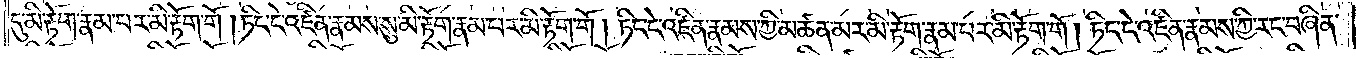དུ་མི་རྟོག་རྣམ་པར་མི་རྟོག་གོ །ཏིང་ངེ་འཛིན་རྣམས་སུ་མི་རྟོག་རྣམ་པར་མི་རྟོག་གོ །ཏིང་ངེ་འཛིན་རྣམས་ཀྱི་མཚན་མར་མི་རྟོག་རྣམ་པར་མི་རྟོག་གོ །ཏིང་ངེ་འཛིན་རྣམས་ཀྱི་རང་བཞིན་
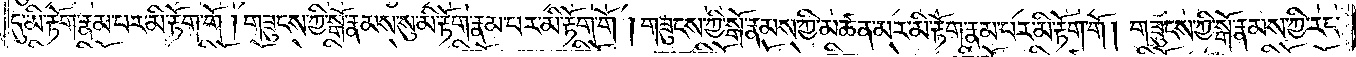དུ་མི་རྟོག་རྣམ་པར་མི་རྟོག་གོ །གཟུངས་ཀྱི་སྒོ་རྣམས་སུ་མི་རྟོག་རྣམ་པར་མི་རྟོག་གོ །གཟུངས་ཀྱི་སྒོ་རྣམས་ཀྱི་མཚན་མར་མི་རྟོག་རྣམ་པར་མི་རྟོག་གོ །གཟུངས་ཀྱི་སྒོ་རྣམས་ཀྱི་རང་
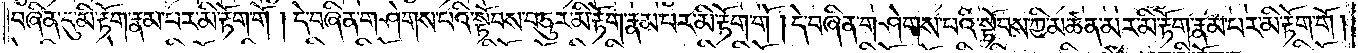བཞིན་དུ་མི་རྟོག་རྣམ་པར་མི་རྟོག་གོ །དེ་བཞིན་གཤེགས་པའི་སྟོབས་བཅུར་མི་རྟོག་རྣམ་པར་མི་རྟོག་གོ །དེ་བཞིན་གཤེགས་པའི་སྟོབས་ཀྱི་མཚན་མར་མི་རྟོག་རྣམ་པར་མི་རྟོག་གོ།
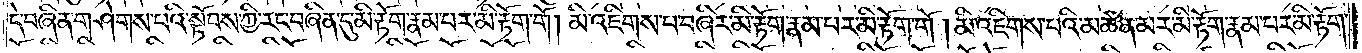དེ་བཞིན་གཤེགས་པའི་སྟོབས་ཀྱི་རང་བཞིན་དུ་མི་རྟོག་རྣམ་པར་མི་རྟོག་གོ །མི་འཇིགས་པ་བཞིར་མི་རྟོག་རྣམ་པར་མི་རྟོག་གོ །མི་འཇིགས་པའི་མཚན་མར་མི་རྟོག་རྣམ་པར་མི་རྟོག་
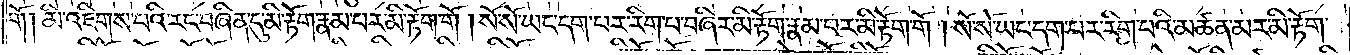གོ །མི་འཇིགས་པའི་རང་བཞིན་དུ་མི་རྟོག་རྣམ་པར་མི་རྟོག་གོ །སོ་སོ་ཡང་དག་པར་རིག་པ་བཞིར་མི་རྟོག་རྣམ་པར་མི་རྟོག་གོ །སོ་སོ་ཡང་དག་པར་རིག་པའི་མཚན་མར་མི་རྟོག་
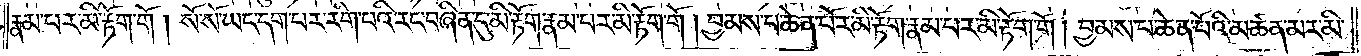རྣམ་པར་མི་རྟོག་གོ །སོ་སོ་ཡང་དག་པར་རིག་པའི་རང་བཞིན་དུ་མི་རྟོག་རྣམ་པར་མི་རྟོག་གོ །བྱམས་པ་ཆེན་པོར་མི་རྟོག་རྣམ་པར་མི་རྟོག་གོ །བྱམས་པ་ཆེན་པོའི་མཚན་མར་མི་
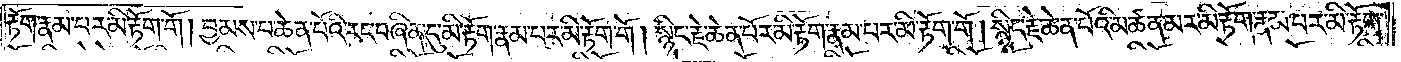རྟོག་རྣམ་པར་མི་རྟོག་གོ །བྱམས་པ་ཆེན་པོའི་རང་བཞིན་དུ་མི་རྟོག་རྣམ་པར་མི་རྟོག་གོ །སྙིང་རྗེ་ཆེན་པོར་མི་རྟོག་རྣམ་པར་མི་རྟོག་གོ །སྙིང་རྗེ་ཆེན་པོའི་མཚན་མར་མི་རྟོག་རྣམ་པར་མི་རྟོག་
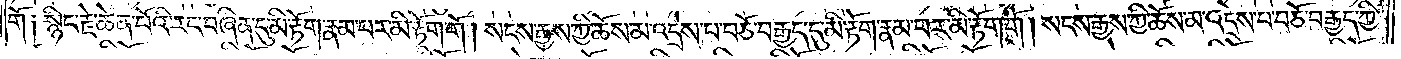གོ་༑སྙིང་རྗེ་ཆེན་པོའི་རང་བཞིན་དུ་མི་རྟོག་རྣམ་པར་མི་རྟོག་གོ །སངས་རྒྱས་ཀྱི་ཆོས་མ་འདྲེས་པ་བཅོ་བརྒྱད་དུ་མི་རྟོག་རྣམ་པར་མི་རྟོག་གོ །སངས་རྒྱས་ཀྱི་ཆོས་མ་འདྲེས་པ་བཅོ་བརྒྱད་ཀྱི་
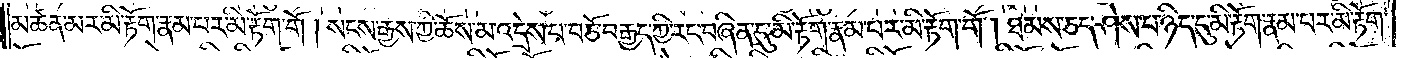མཚན་མར་མི་རྟོག་རྣམ་པར་མི་རྟོག་གོ །སངས་རྒྱས་ཀྱི་ཆོས་མ་འདྲེས་པ་བཅོ་བརྒྱད་ཀྱི་རང་བཞིན་དུ་མི་རྟོག་རྣམ་པར་མི་རྟོག་གོ །ཐམས་ཅད་ཤེས་པ་ཉིད་དུ་མི་རྟོག་རྣམ་པར་མི་རྟོག་
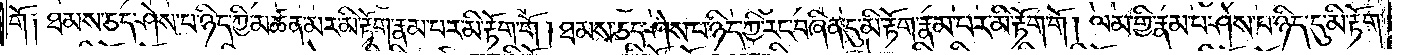གོ་༑ཐམས་ཅད་ཤེས་པ་ཉིད་ཀྱི་མཚན་མར་མི་རྟོག་རྣམ་པར་མི་རྟོག་གོ །ཐམས་ཅད་ཤེས་པ་ཉིད་ཀྱི་རང་བཞིན་དུ་མི་རྟོག་རྣམ་པར་མི་རྟོག་གོ །ལམ་གྱི་རྣམ་པ་ཤེས་པ་ཉིད་དུ་མི་རྟོག་
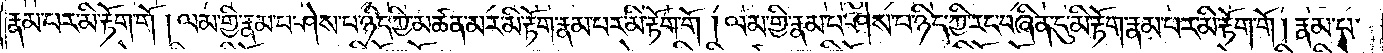རྣམ་པར་མི་རྟོག་གོ །ལམ་གྱི་རྣམ་པ་ཤེས་པ་ཉིད་ཀྱི་མཚན་མར་མི་རྟོག་རྣམ་པར་མི་རྟོག་གོ །ལམ་གྱི་རྣམ་པ་ཤེས་པ་ཉིད་ཀྱི་རང་བཞིན་དུ་མི་རྟོག་རྣམ་པར་མི་རྟོག་གོ །རྣམ་པ་
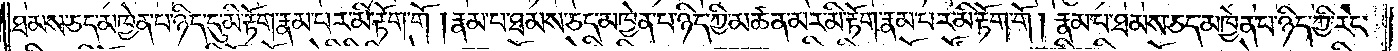ཐམས་ཅད་མཁྱེན་པ་ཉིད་དུ་མི་རྟོག་རྣམ་པར་མི་རྟོག་གོ །རྣམ་པ་ཐམས་ཅད་མཁྱེན་པ་ཉིད་ཀྱི་མཚན་མར་མི་རྟོག་རྣམ་པར་མི་རྟོག་གོ །རྣམ་པ་ཐམས་ཅད་མཁྱེན་པ་ཉིད་ཀྱི་རང་
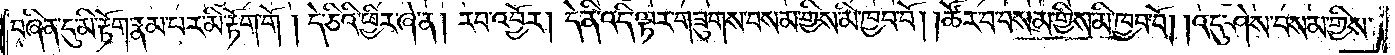བཞིན་དུ་མི་རྟོག་རྣམ་པར་མི་རྟོག་གོ །དེ་ཅིའི་ཕྱིར་ཞེ་ན། རབ་འབྱོར། དེ་ནི་འདི་ལྟར་གཟུགས་བསམ་གྱིས་མི་ཁྱབ་བོ། །ཚོར་བ་བསམ་གྱིས་མི་ཁྱབ་བོ། །འདུ་ཤེས་བསམ་གྱིས་
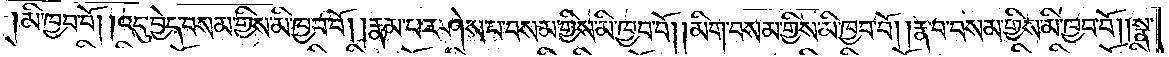མི་ཁྱབ་བོ། །འདུ་བྱེད་བསམ་གྱིས་མི་ཁྱབ་བོ། །རྣམ་པར་ཤེས་པ་བསམ་གྱིས་མི་ཁྱབ་བོ། །མིག་བསམ་གྱིས་མི་ཁྱབ་བོ། །རྣ་བ་བསམ་གྱིས་མི་ཁྱབ་བོ། །སྣ་
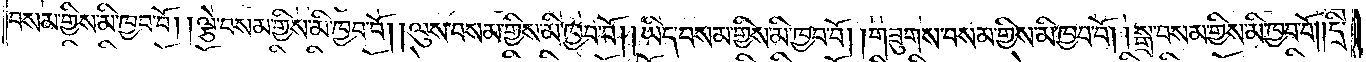བསམ་གྱིས་མི་ཁྱབ་བོ། །ལྕེ་བསམ་གྱིས་མི་ཁྱབ་བོ། །ལུས་བསམ་གྱིས་མི་ཁྱབ་བོ། །ཡིད་བསམ་གྱིས་མི་ཁྱབ་བོ། །གཟུགས་བསམ་གྱིས་མི་ཁྱབ་བོ། །སྒྲ་བསམ་གྱིས་མི་ཁྱབ་བོ། །དྲི་
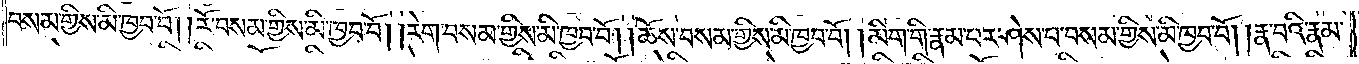བསམ་གྱིས་མི་ཁྱབ་བོ། །རོ་བསམ་གྱིས་མི་ཁྱབ་བོ། །རེག་བསམ་གྱིས་མི་ཁྱབ་བོ། །ཆོས་བསམ་གྱིས་མི་ཁྱབ་བོ། །མིག་གི་རྣམ་པར་ཤེས་པ་བསམ་གྱིས་མི་ཁྱབ་བོ། །རྣ་བའི་རྣམ་
